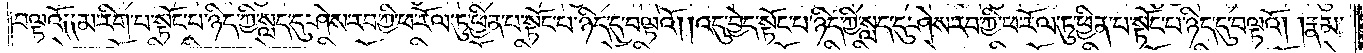བལྟའོ༑ ༑མ་རིག་པ་སྟོང་པ་ཉིད་ཀྱི་སླད་དུ་ཤེས་རབ་ཀྱི་ཕ་རོལ་ཏུ་ཕྱིན་པ་སྟོང་པ་ཉིད་དུ་བལྟའོ། །འདུ་བྱེད་སྟོང་པ་ཉིད་ཀྱི་སླད་དུ་ཤེས་རབ་ཀྱི་ཕ་རོལ་ཏུ་ཕྱིན་པ་སྟོང་པ་ཉིད་དུ་བལྟའོ། །རྣམ་
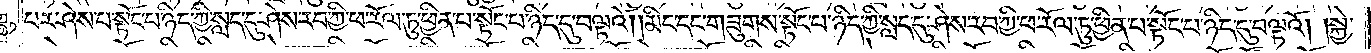པར་ཤེས་པ་སྟོང་པ་ཉིད་ཀྱི་སླད་དུ་ཤེས་རབ་ཀྱི་ཕ་རོལ་ཏུ་ཕྱིན་པ་སྟོང་པ་ཉིད་དུ་བལྟའོ། །མིང་དང་གཟུགས་སྟོང་པ་ཉིད་ཀྱི་སླད་དུ་ཤེས་རབ་ཀྱི་ཕ་རོལ་ཏུ་ཕྱིན་པ་སྟོང་པ་ཉིད་དུ་བལྟའོ། །སྐྱེ་
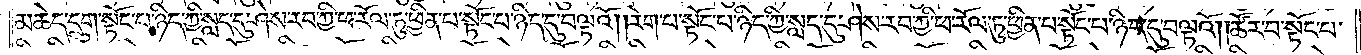མཆེད་དྲུག་སྟོང་པ་ཉིད་ཀྱི་སླད་དུ་ཤེས་རབ་ཀྱི་ཕ་རོལ་ཏུ་ཕྱིན་པ་སྟོང་པ་ཉིད་དུ་བལྟའོ། །རེག་པ་སྟོང་པ་ཉིད་ཀྱི་སླད་དུ་ཤེས་རབ་ཀྱི་ཕ་རོལ་ཏུ་ཕྱིན་པ་སྟོང་པ་ཉིད་དུ་བལྟའོ། །ཚོར་བ་སྟོང་པ་
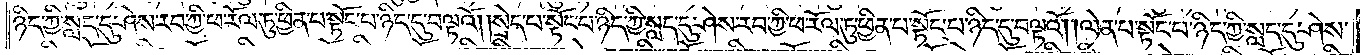ཉིད་ཀྱི་སླད་དུ་ཤེས་རབ་ཀྱི་ཕ་རོལ་ཏུ་ཕྱིན་པ་སྟོང་པ་ཉིད་དུ་བལྟའོ། །སྲེད་པ་སྟོང་པ་ཉིད་ཀྱི་སླད་དུ་ཤེས་རབ་ཀྱི་ཕ་རོལ་ཏུ་ཕྱིན་པ་སྟོང་པ་ཉིད་དུ་བལྟའོ། །ལེན་པ་སྟོང་པ་ཉིད་ཀྱི་སླད་དུ་ཤེས་
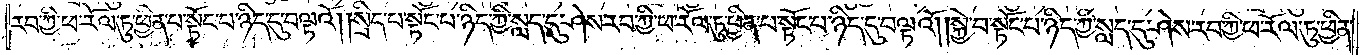རབ་ཀྱི་ཕ་རོལ་ཏུ་ཕྱིན་པ་སྟོང་པ་ཉིད་དུ་བལྟའོ། །སྲིད་པ་སྟོང་པ་ཉིད་ཀྱི་སླད་དུ་ཤེས་རབ་ཀྱི་ཕ་རོལ་ཏུ་ཕྱིན་པ་སྟོང་པ་ཉིད་དུ་བལྟའོ། །སྐྱེ་བ་སྟོང་པ་ཉིད་ཀྱི་སླད་དུ་ཤེས་རབ་ཀྱི་ཕ་རོལ་ཏུ་ཕྱིན་
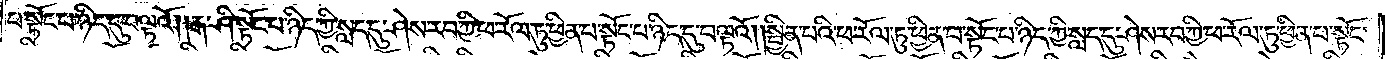པ་སྟོང་པ་ཉིད་དུ་བལྟའོ། །རྒ་ཤི་སྟོང་པ་ཉིད་ཀྱི་སླད་དུ་ཤེས་རབ་ཀྱི་ཕ་རོལ་ཏུ་ཕྱིན་པ་སྟོང་པ་ཉིད་དུ་བལྟའོ། །སྦྱིན་པའི་ཕ་རོལ་ཏུ་ཕྱིན་པ་སྟོང་པ་ཉིད་ཀྱི་སླད་དུ་ཤེས་རབ་ཀྱི་ཕ་རོལ་ཏུ་ཕྱིན་པ་སྟོང་
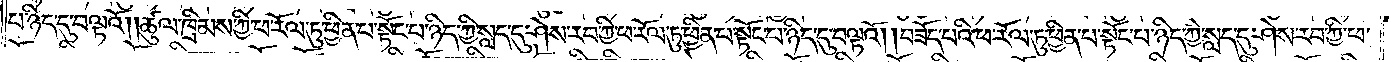པ་ཉིད་དུ་བལྟའོ། །ཚུལ་ཁྲིམས་ཀྱི་ཕ་རོལ་ཏུ་ཕྱིན་པ་སྟོང་པ་ཉིད་ཀྱི་སླད་དུ་ཤེས་རབ་ཀྱི་ཕ་རོལ་ཏུ་ཕྱིན་པ་སྟོང་པ་ཉིད་དུ་བལྟའོ། །བཟོད་པའི་ཕ་རོལ་ཏུ་ཕྱིན་པ་སྟོང་པ་ཉིད་ཀྱི་སླད་དུ་ཤེས་རབ་ཀྱི་ཕ་
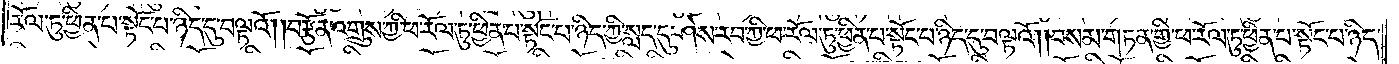རོལ་ཏུ་ཕྱིན་པ་སྟོང་པ་ཉིད་དུ་བལྟའོ། །བརྩོན་འགྲུས་ཀྱི་ཕ་རོལ་ཏུ་ཕྱིན་པ་སྟོང་པ་ཉིད་ཀྱི་སླད་དུ་ཤེས་རབ་ཀྱི་ཕ་རོལ་ཏུ་ཕྱིན་པ་སྟོང་པ་ཉིད་དུ་བལྟའོ། །བསམ་གཏན་གྱི་ཕ་རོལ་ཏུ་ཕྱིན་པ་སྟོང་པ་ཉིད་
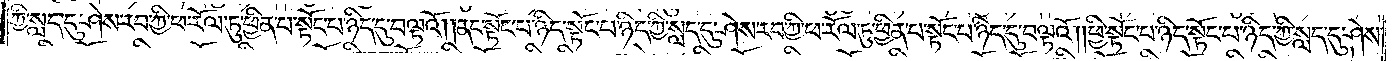ཀྱི་སླད་དུ་ཤེས་རབ་ཀྱི་ཕ་རོལ་ཏུ་ཕྱིན་པ་སྟོང་པ་ཉིད་དུ་བལྟའོ། །ནང་སྟོང་པ་ཉིད་སྟོང་པ་ཉིད་ཀྱི་སླད་དུ་ཤེས་རབ་ཀྱི་ཕ་རོལ་ཏུ་ཕྱིན་པ་སྟོང་པ་ཉིད་དུ་བལྟའོ། །ཕྱི་སྟོང་པ་ཉིད་སྟོང་པ་ཉིད་ཀྱི་སླད་དུ་ཤེས་
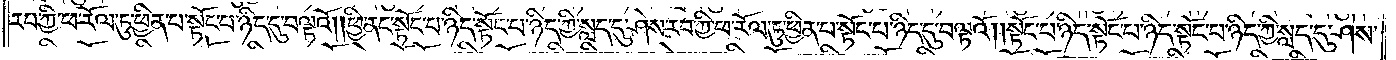རབ་ཀྱི་ཕ་རོལ་ཏུ་ཕྱིན་པ་སྟོང་པ་ཉིད་དུ་བལྟའོ། །ཕྱི་ནང་སྟོང་པ་ཉིད་སྟོང་པ་ཉིད་ཀྱི་སླད་དུ་ཤེས་རབ་ཀྱི་ཕ་རོལ་ཏུ་ཕྱིན་པ་སྟོང་པ་ཉིད་དུ་བལྟའོ། །སྟོང་པ་ཉིད་སྟོང་པ་ཉིད་སྟོང་པ་ཉིད་ཀྱི་སླད་དུ་ཤེས་
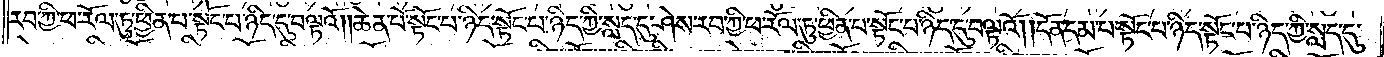རབ་ཀྱི་ཕ་རོལ་ཏུ་ཕྱིན་པ་སྟོང་པ་ཉིད་དུ་བལྟའོ། །ཆེན་པོ་སྟོང་པ་ཉིད་སྟོང་པ་ཉིད་ཀྱི་སླད་དུ་ཤེས་རབ་ཀྱི་ཕ་རོལ་ཏུ་ཕྱིན་པ་སྟོང་པ་ཉིད་དུ་བལྟའོ། །དོན་དམ་པ་སྟོང་པ་ཉིད་སྟོང་པ་ཉིད་ཀྱི་སླད་དུ་
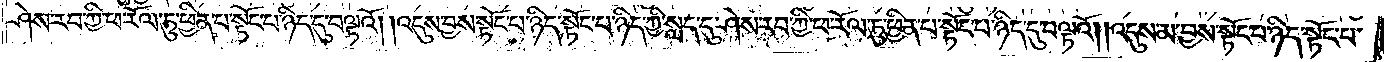ཤེས་རབ་ཀྱི་ཕ་རོལ་ཏུ་ཕྱིན་པ་སྟོང་པ་ཉིད་དུ་བལྟའོ། །འདུས་བྱས་སྟོང་པ་ཉིད་སྟོང་པ་ཉིད་ཀྱི་སླད་དུ་ཤེས་རབ་ཀྱི་ཕ་རོལ་ཏུ་ཕྱིན་པ་སྟོང་པ་ཉིད་དུ་བལྟའོ། །འདུས་མ་བྱས་སྟོང་པ་ཉིད་སྟོང་པ་
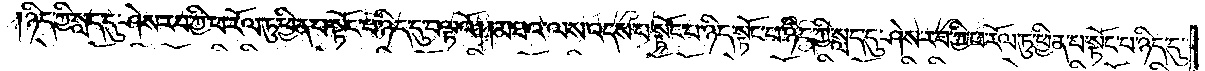ཉིད་ཀྱི་སླད་དུ་ཤེས་རབ་ཀྱི་ཕ་རོལ་ཏུ་ཕྱིན་པ་སྟོང་པ་ཉིད་དུ་བལྟའོ། །མཐའ་ལས་འདས་པ་སྟོང་པ་ཉིད་སྟོང་པ་ཉིད་ཀྱི་སླད་དུ་ཤེས་རབ་ཀྱི་ཕ་རོལ་ཏུ་ཕྱིན་པ་སྟོང་པ་ཉིད་དུ་
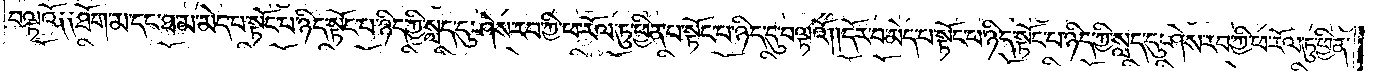བལྟའོ༑ ༑ཐོག་མ་དང་ཐ་མ་མེད་པ་སྟོང་པ་ཉིད་སྟོང་པ་ཉིད་ཀྱི་སླད་དུ་ཤེས་རབ་ཀྱི་ཕ་རོལ་ཏུ་ཕྱིན་པ་སྟོང་པ་ཉིད་དུ་བལྟའོ། །དོར་བ་མེད་པ་སྟོང་པ་ཉིད་སྟོང་པ་ཉིད་ཀྱི་སླད་དུ་ཤེས་རབ་ཀྱི་ཕ་རོལ་ཏུ་ཕྱིན་
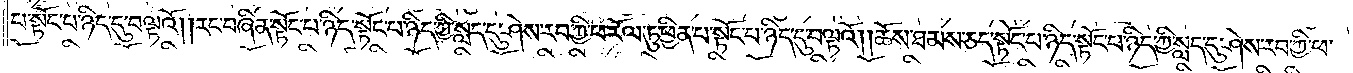པ་སྟོང་པ་ཉིད་དུ་བལྟའོ། །རང་བཞིན་སྟོང་པ་ཉིད་སྟོང་པ་ཉིད་ཀྱི་སླད་དུ་ཤེས་རབ་ཀྱི་ཕ་རོལ་ཏུ་ཕྱིན་པ་སྟོང་པ་ཉིད་དུ་བལྟའོ། །ཆོས་ཐམས་ཅད་སྟོང་པ་ཉིད་སྟོང་པ་ཉིད་ཀྱི་སླད་དུ་ཤེས་རབ་ཀྱི་ཕ་
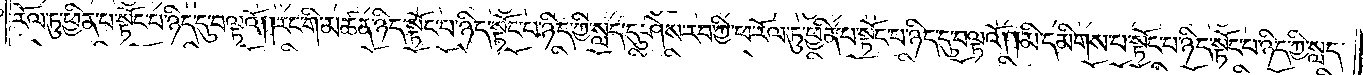རོལ་ཏུ་ཕྱིན་པ་སྟོང་པ་ཉིད་དུ་བལྟའོ། །རང་གི་མཚན་ཉིད་སྟོང་པ་ཉིད་སྟོང་པ་ཉིད་ཀྱི་སླད་དུ་ཤེས་རབ་ཀྱི་ཕ་རོལ་ཏུ་ཕྱིན་པ་སྟོང་པ་ཉིད་དུ་བལྟའོ། །མི་དམིགས་པ་སྟོང་པ་ཉིད་སྟོང་པ་ཉིད་ཀྱི་སླད་
